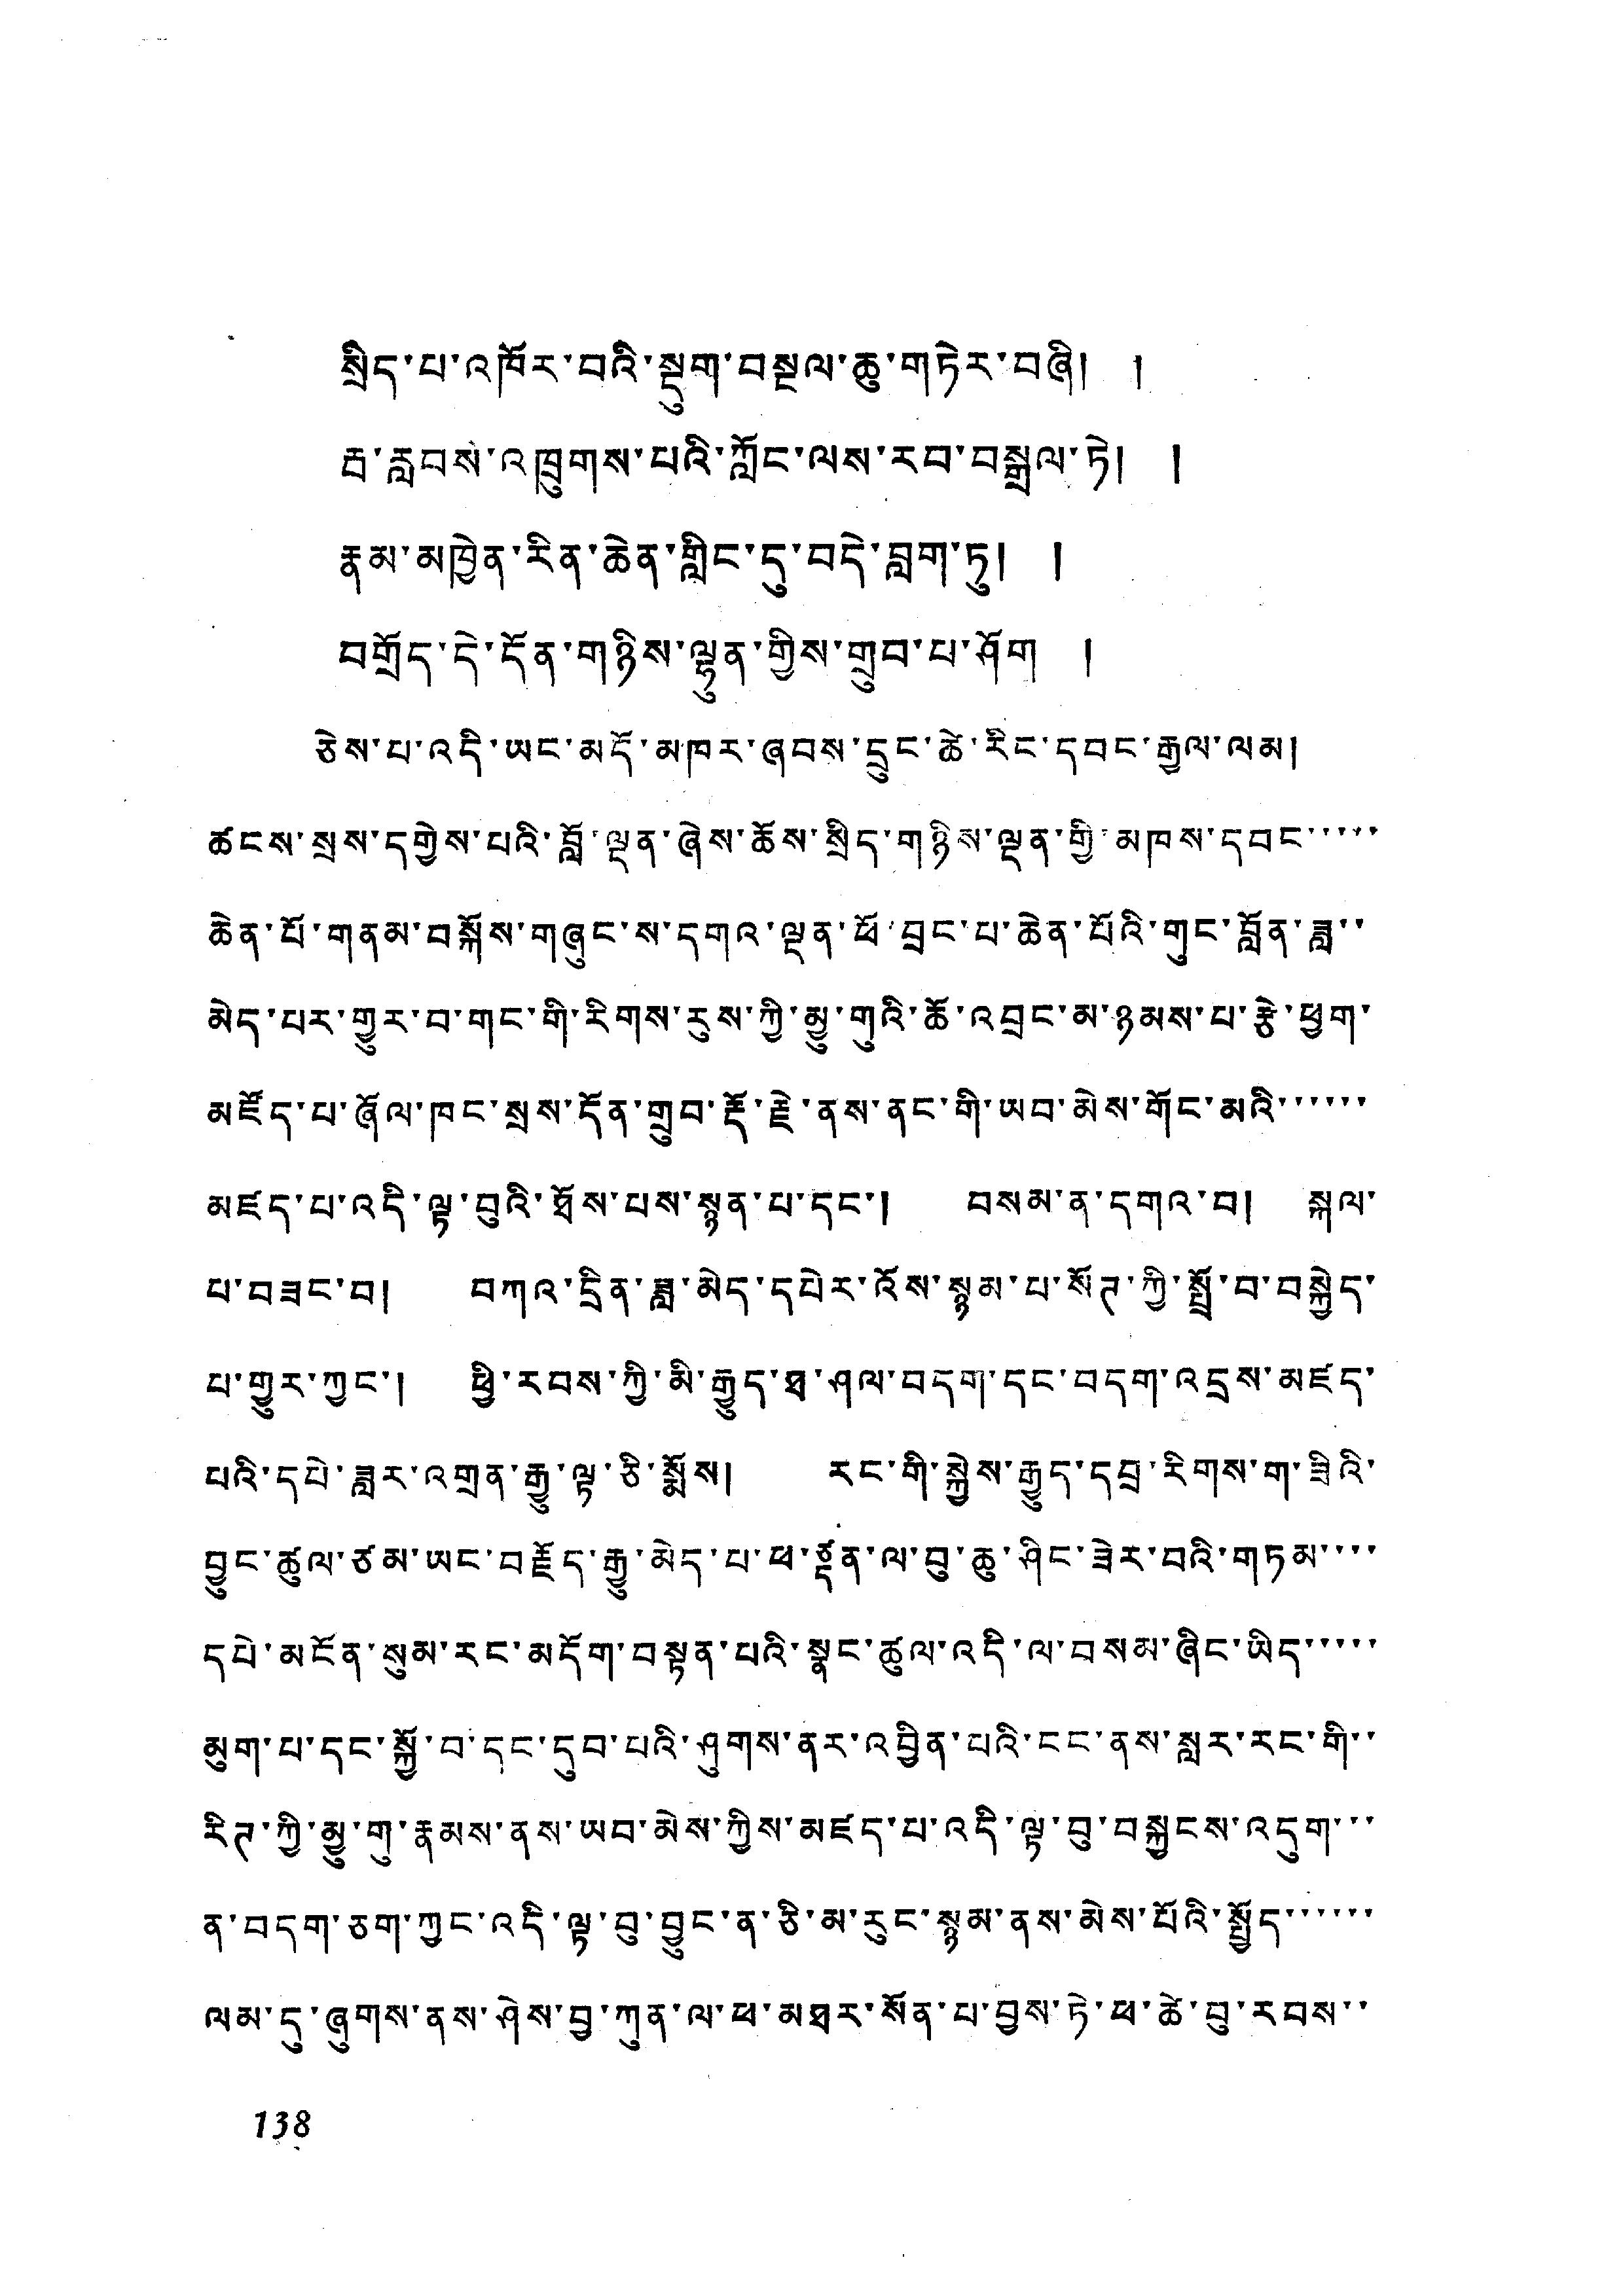སྲིད་པ་འཁོར་བའི་སྡུག་བསྔལ་ཆུ་གཏེར་བཞི། །
བ་རླབས་འཁྲུགས་པའི་ཀློང་ལས་རབ་བསྒྲལ་ཏེ། །
རྣམ་མཁྱེན་རིན་ཆེན་གླིང་དུ་བདེ་བླག་ཏུ། །
བགྲོད་དེ་དོན་གཉིས་ལྷུན་གྱིས་གྲུབ་པ་ཤོག །
ཅེས་པ་འདི་ཡང་མདོ་མཁར་ཞབས་དྲུང་ཚེ་རིང་དབང་རྒྱལ་ལམ།
ཚངས་སྲས་དགྱེས་པའི་བློ་ལྡན་ཞེས་ཆོས་སྲིད་གཉིས་ལྡན་གྱི་མཁས་དབང་་་་་
ཆེན་པོ་གནམ་བསྐོས་གཞུང་ས་དགའ་ལྡན་ཕོ་བྲང་པ་ཆེན་པོའི་གུང་བློན་ཟླ་་
མེད་པར་གྱུར་བ་གང་གི་རིགས་རུས་ཀྱི་མྱུ་གུའི་ཆོ་འབྲང་མ་ཉམས་པ་རྩེ་ཕྱག་
མཛོད་པ་ཞོལ་ཁང་སྲས་དོན་གྲུབ་རྡོ་རྗེ་ནས་ནང་གི་ཡབ་མེས་གོང་མའི་་་་་་
མཛད་པ་འདི་ལྟ་བུའི་ཐོས་པས་སྙན་པ་དང་། བསམ་ན་དགའ་བ། སྐལ་
པ་བཟང་བ། བཀའ་དྲིན་ཟླ་མེད་དཔེར་འོས་སྙམ་པ་སོཌ་ཀྱི་སྤྲོ་བ་བསྐྱེད་
པ་གྱུར་ཀྱང་། ཕྱི་རབས་ཀྱི་མི་རྒྱུད་ཐ་ཤལ་བདག་དང་བདག་འདྲས་མཛད་
པའི་དཔེ་ཟླར་འགྲན་རྒྱུ་ལྟ་ཅི་སྨོས། རང་གི་སྐྱེས་རྒྱུད་དབྲ་རིགས་ག་ཟིའི་
བྱུང་ཚུལ་ཙམ་ཡང་བརྗོད་རྒྱུ་མེད་པ་ཕ་ཙྡན་ལ་བུ་ཆུ་ཤིང་ཟེར་བའི་གཏམ་་་་
དཔེ་མངོན་སུམ་རང་མདོག་བསྟན་པའི་སྣང་ཚུལ་འདི་ལ་བསམ་ཞིང་ཡིད་་་་་
མུག་པ་དང་སྐྱོ་བ་དང་དུབ་པའི་ཤུགས་ནར་འབྱིན་པའི་ངང་ནས་སླར་རང་གི་་
རིཊ་ཀྱི་མྱུ་གུ་རྣམས་ནས་ཡབ་མེས་ཀྱིས་མཛད་པ་འདི་ལྟ་བུ་བསྐྱངས་འདུག་་་
ན་བདག་ཅག་ཀྱང་འདི་ལྟ་བུ་བྱུང་ན་ཅི་མ་རུང་སྙམ་ནས་མེས་པོའི་སྤྱོད་་་་་་
ལམ་དུ་ཞུགས་ནས་ཤེས་བྱ་ཀུན་ལ་ཕ་མཐར་སོན་པ་བྱས་ཏེ་ཕ་ཚེ་བུ་རབས་་
138
